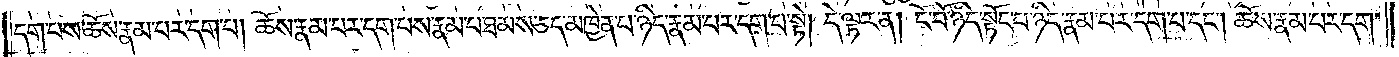དག་པས་ཆོས་རྣམ་པར་དག་པ། ཆོས་རྣམ་པར་དག་པས་རྣམ་པ་ཐམས་ཅད་མཁྱེན་པ་ཉིད་རྣམ་པར་དག་པ་སྟེ། དེ་ལྟར་ན། ངོ་བོ་ཉིད་སྟོང་པ་ཉིད་རྣམ་པར་དག་པ་དང༌། ཆོས་རྣམ་པར་དག་
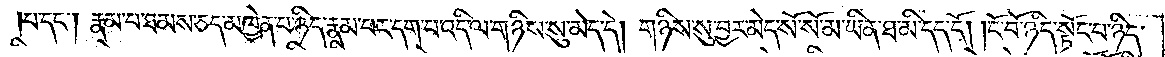པ་དང༌། རྣམ་པ་ཐམས་ཅད་མཁྱེན་པ་ཉིད་རྣམ་པར་དག་པ་འདི་ལ་གཉིས་སུ་མེད་དེ། གཉིས་སུ་བྱར་མེད་སོ་སོ་མ་ཡིན་ཐ་མི་དད་དོ། །ངོ་བོ་ཉིད་སྟོང་པ་ཉིད་
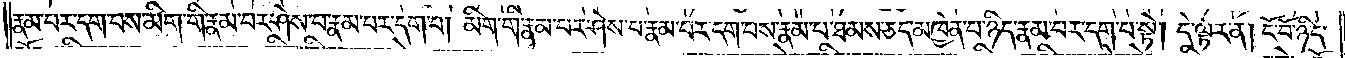རྣམ་པར་དག་པས་མིག་གི་རྣམ་པར་ཤེས་པ་རྣམ་པར་དག་པ། །མིག་གི་རྣམ་པར་ཤེས་པ་རྣམ་པར་དག་པས་རྣམ་པ་ཐམས་ཅད་མཁྱེན་པ་ཉིད་རྣམ་པར་དག་པ་སྟེ། དེ་ལྟར་ན། ངོ་བོ་ཉིད་
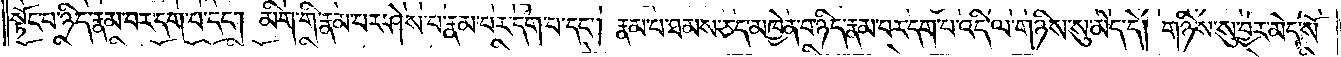སྟོང་པ་ཉིད་རྣམ་པར་དག་པ་དང༌། མིག་གི་རྣམ་པར་ཤེས་པ་རྣམ་པར་དག་པ་དང༌། རྣམ་པ་ཐམས་ཅད་མཁྱེན་པ་མཁྱེན་པ་ཉིད་རྣམ་པར་དག་པ་འདི་ལ་གཉིས་སུ་མེད་དེ། གཉིས་སུ་བྱར་མེད་སོ་
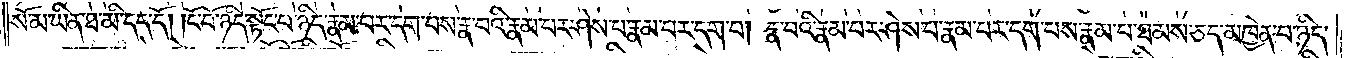སོ་མ་ཡིན་ཐ་མི་དད་དོ། །ངོ་བོ་ཉིད་སྟོང་པ་ཉིད་རྣམ་པར་དག་པས་རྣ་བའི་རྣམ་པར་ཤེས་པ་རྣམ་པར་དག་པ། རྣ་བའི་རྣམ་པར་ཤེས་པ་རྣམ་པར་དག་པས་རྣམ་པ་ཐམས་ཅད་མཁྱེན་པ་ཉིད་
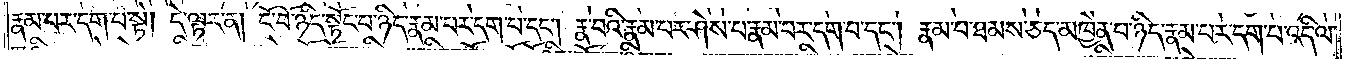རྣམ་པར་དག་པ་སྟེ། དེ་ལྟར་ན། ངོ་བོ་ཉིད་སྟོང་པ་ཉིད་རྣམ་པར་དག་པ་དང༌། རྣ་བའི་རྣམ་པར་ཤེས་པ་རྣམ་པར་དག་པ་དང༌། རྣམ་པ་ཐམས་ཅད་མཁྱེན་པ་ཉིད་རྣམ་པར་དག་པ་འདི་ལ་
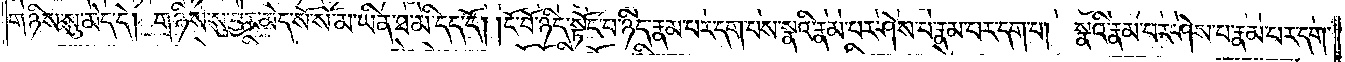གཉིས་སུ་མེད་དེ། གཉིས་སུ་བྱར་མེད་སོ་སོ་མ་ཡིན་ཐ་མི་དད་དོ། །ངོ་བོ་ཉིད་སྟོང་པ་ཉིད་རྣམ་པར་དག་པས་སྣའི་རྣམ་པར་ཤེས་པ་རྣམ་པར་དག་པ། སྣའི་རྣམ་པར་ཤེས་པ་རྣམ་པར་དག་
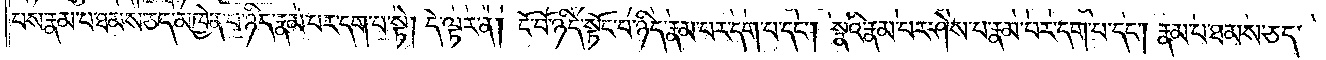པས་རྣམ་པ་ཐམས་ཅད་མཁྱེན་པ་ཉིད་རྣམ་པར་དག་པ་སྟེ། དེ་ལྟར་ན། ངོ་བོ་ཉིད་སྟོང་པ་ཉིད་རྣམ་པར་དག་པ་དང༌། སྣའི་རྣམ་པར་ཤེས་པ་རྣམ་པར་དག་པ་དང༌། རྣམ་པ་ཐམས་ཅད་
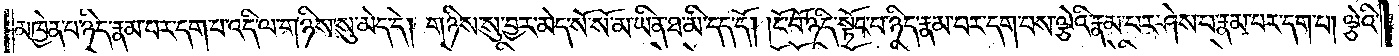མཁྱེན་པ་ཉིད་རྣམ་པར་དག་པ་འདི་ལ་གཉིས་སུ་མེད་དེ། གཉིས་སུ་བྱར་མེད་སོ་སོ་མ་ཡིན་ཐ་མི་དད་དོ། །ངོ་བོ་ཉིད་སྟོང་པ་ཉིད་རྣམ་པར་དག་པས་ལྕེའི་རྣམ་པར་ཤེས་པ་རྣམ་པར་དག་པ། ལྕེའི་
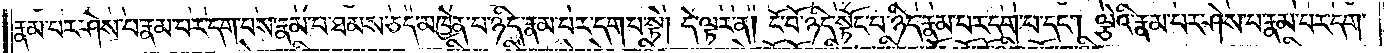རྣམ་པར་ཤེས་པ་རྣམ་པར་དག་པས་རྣམ་པ་ཐམས་ཅད་མཁྱེན་པ་ཉིད་རྣམ་པར་དག་པ་སྟེ། དེ་ལྟར་ན། ངོ་བོ་ཉིད་སྟོང་པ་ཉིད་རྣམ་པར་དག་པ་དང༌། ལྕེའི་རྣམ་པར་ཤེས་པ་རྣམ་པར་དག་
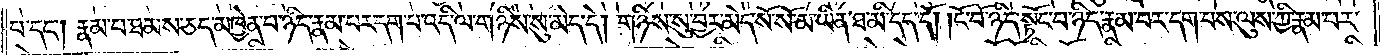པ་དང༌། རྣམ་པ་ཐམས་ཅད་མཁྱེན་པ་ཉིད་རྣམ་པར་དག་པ་འདི་ལ་གཉིས་སུ་མེད་དེ། གཉིས་སུ་བྱར་མེད་སོ་སོ་མ་ཡིན་ཐ་མི་དད་དོ། །ངོ་བོ་ཉིད་སྟོང་པ་ཉིད་རྣམ་པར་དག་པས་ལུས་ཀྱི་རྣམ་པར་
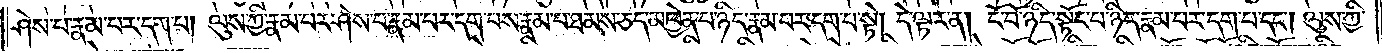ཤེས་པ་རྣམ་པར་དག་པ། ལུས་ཀྱི་རྣམ་པར་ཤེས་པ་རྣམ་པར་དག་པས་རྣམ་པ་ཐམས་ཅད་མཁྱེན་པ་ཉིད་རྣམ་པར་དག་པ་སྟེ། དེ་ལྟར་ན། ངོ་བོ་ཉིད་སྟོང་པ་ཉིད་རྣམ་པར་དག་པ་དང༌། ལུས་ཀྱི་
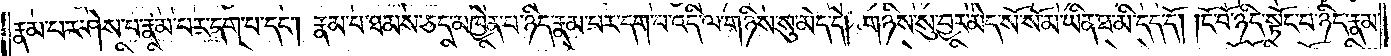རྣམ་པར་ཤེས་པ་རྣམ་པར་དག་པ་དང༌། རྣམ་པ་ཐམས་ཅད་མཁྱེན་པ་ཉིད་རྣམ་པར་དག་པ་འདི་ལ་གཉིས་སུ་མེད་དེ། གཉིས་སུ་བྱར་མེད་སོ་སོ་མ་ཡིན་ཐ་མི་དད་དོ། །ངོ་བོ་ཉིད་སྟོང་པ་ཉིད་རྣམ་
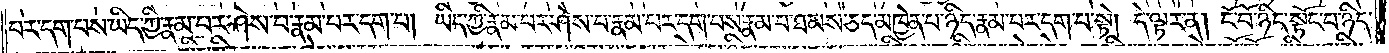པར་དག་པས་ཡིད་ཀྱི་རྣམ་པར་ཤེས་པ་རྣམ་པར་དག་པ། ཡིད་ཀྱི་རྣམ་པར་ཤེས་པ་རྣམ་པར་དག་པས་རྣམ་པ་ཐམས་ཅད་མཁྱེན་པ་ཉིད་རྣམ་པར་དག་པ་སྟེ། དེ་ལྟར་ན། ངོ་བོ་ཉིད་སྟོང་པ་ཉིད་
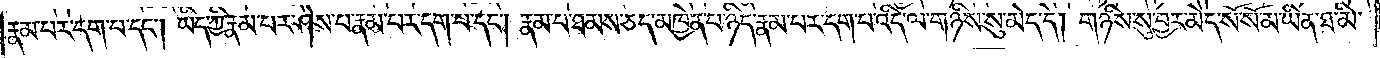རྣམ་པར་དག་པ་དང༌། ཡིད་ཀྱི་རྣམ་པར་ཤེས་པ་རྣམ་པར་དག་པ་དང༌། རྣམ་པ་ཐམས་ཅད་མཁྱེན་པ་ཉིད་རྣམ་པར་དག་པ་འདི་ལ་གཉིས་སུ་མེད་དེ། གཉིས་སུ་བྱར་མེད་སོ་སོ་མ་ཡིན་ཐ་མི་
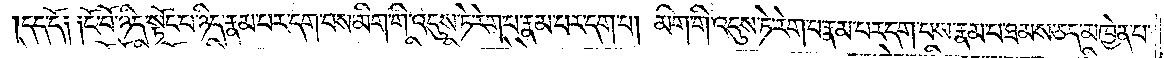དད་དོ༑ ༑ངོ་བོ་ཉིད་སྟོང་པ་ཉིད་རྣམ་པར་དག་པས་མིག་གི་འདུས་ཏེ་རེག་པ་རྣམ་པར་དག་པ། མིག་གི་འདུས་ཏེ་རེག་པ་རྣམ་པར་དག་པས་རྣམ་པ་ཐམས་ཅད་མཁྱེན་པ་
